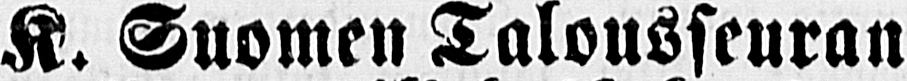K. Suomen Talousseuran
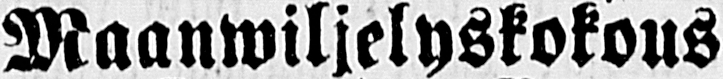Maanwiljelyskokous
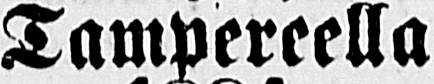Tampereella
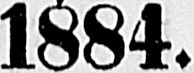1884.
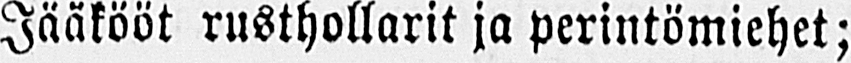Jääkööt rusthollarit ja perintömiehet;
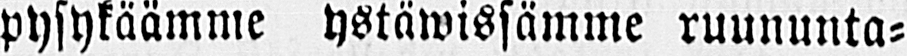pysykäämme ystäwissämme ruununta-
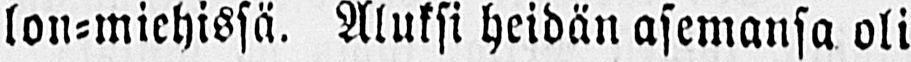lon-miehissä. Aluksi heidän asemansa oli
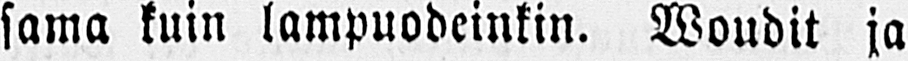sama kuin lampuodeinkin. Woudit ja
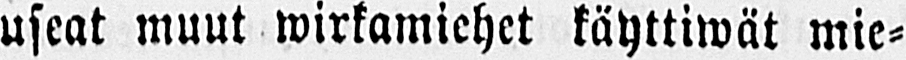useat muut wirkamiehet käyttiwät mie-
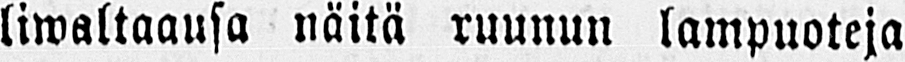liwaltaausa näitä ruunun lampuoteja
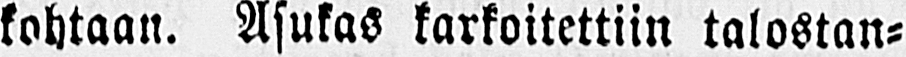kohtaan. Asukas karkoitettiin talostan-
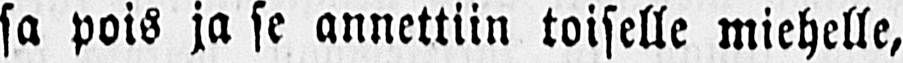sa pois ja se annettiin toiselle miehelle,
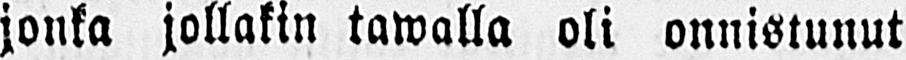jonka jollakin tawalla oli onnistunut
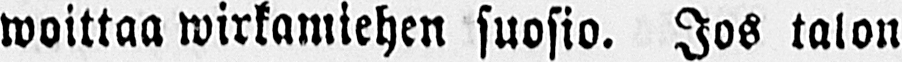woittaa wirkamiehen suosio. Jos talon
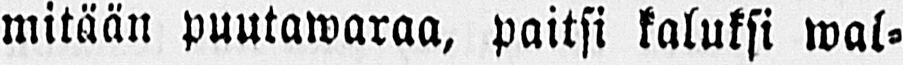mitään puutawaraa, paitsi kaluksi wal-
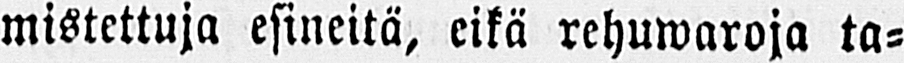mistettuja esineitä, eikä rehuwaroja ta-
